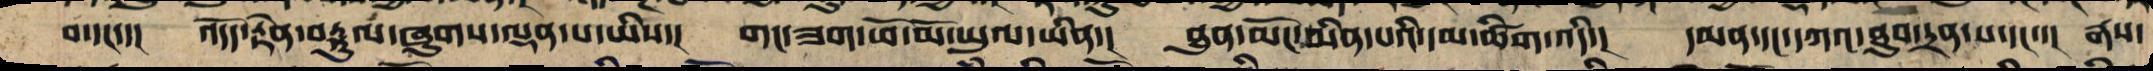བ་དང་་།  འདོད་རྟེན་བརྟུལ་ཞུགས་ལྡན་པ་ཡིས་།  གང་ཟག་ཕོ་མོ་སྤྱོད་ཡུལ་ཡིན་།  ཐུན་མོང་མིན་པའི་དམ་ཚིག་འདི་།  དམན་དང་དཀའ་ཐུབ་དྲན་པ་དང་་།  རྒས་
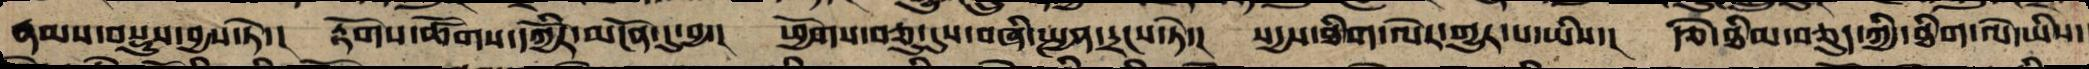རྣམས་བསྡུས་བྱས་ཏེ་།  རྟོགས་ཚོགས་དཀྱིོར་མངོན་དུ་བྱ་།  ཕྱོགས་བཅུ་དུས་བཞི་སྤྱན་དྲངས་ཏེ་།  སདྱས་ཐིག་ལེར་གྱུར་པ་ཡིས་།  རྩེ་ཐིམ་བཅུད་ཀྱི་ཐིག་ལེ་ཡིས་
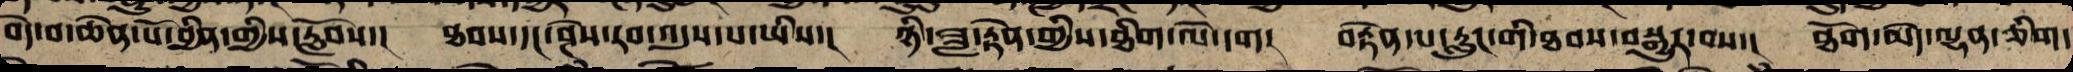བདེ་བ་ཆེན་པོ་བྱིན་གྱིས་རློབས་།  ཐབས་དང་ཤེས་རབ་འདུས་པ་ཡིས་།  ཉི་ཟླ་རྟེན་གྱིས་ཐིག་ལེ་དག།  བརྟེན་པ་རླུང་གི་ཐབས་བསྒྱུར་བས་།  ཐོག་མེད་ལྷན་ཅིག་
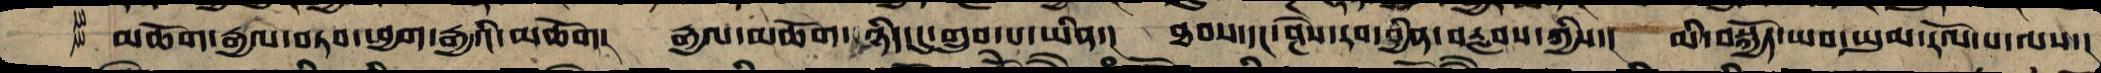མཆོག་རྒྱས་བཏབ་ཕྱག་རྒྱའི་མཆོག། རྒྱལ་མཆོག་ཉིད་དུ་གྲུབ་པ་ཡིན་། ཐབས་དང་ཤེས་རབ་བྱིན་རླབས་ཀྱིས། མི་སྤྱོད་ཡབ་ཡུམ་རོལ་པ་ལས་།
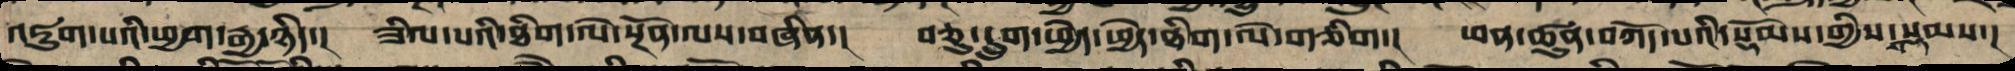འཇུག་པའི་ཕྱག་རྒྱ་ཉིད་།  ཟིལ་པའི་ཐིག་ལེ་སྔོན་ལས་བཞིན་།  བཅུ་དྲུག་ཕྱེད་ཕྱེད་ཐིག་ལེ་གཅིག་།  ཕན་ཚུན་བཀོད་པའི་སྡོམས་གྱིས་སྡམས་།
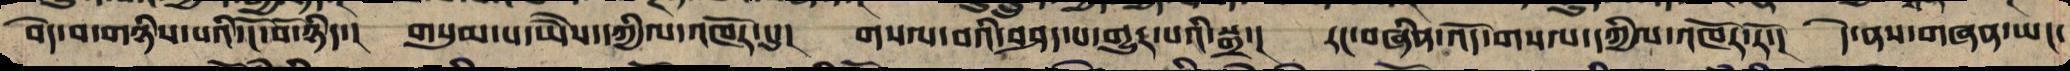བདེ་བ་གཉིས་པའི་ངོ་བོ་ཉིད་།  གསུམ་པ་ཡཻས་དཀྱིལ་འཁོར་དུ་།  གསལ་བའི་བཤད་པ་གྱུར་པའི་སྒྲ་།  རང་བཞིན་འོད་གསལ་དཀྱིལ་འཁོར་རོ་།  དེ་ནས་གཞན་ཡང་
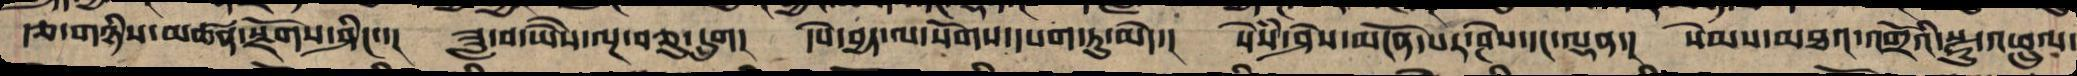རྩ་གཉིས་མཚན་སྫོགས་ཤིང་་།  ཟླ་བ་ཡཻས་ལྔ་བཅུ་དྲུག།  དཔེ་བྱད་ལ་སོགས་དཔག་ཏུ་མེད་།  སེཾས་ཤེས་མངོན་པར་ཤེས་དང་ལྡན་།  སེམས་མཐའ་འགྲོའི་སྫུ་འཕྲུལ་
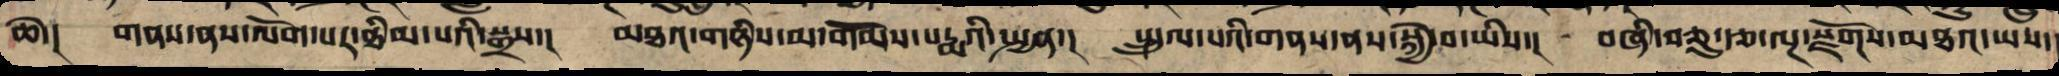ཆེ་།  གནས་ནས་ལོག་པར་ཐིམ་པའི་སྒྲས་།  མཐའ་གཉིས་མ་གོམས་པདྨའི་སྤྱན་།  སྤྲུལ་པའི་གནས་ནས་སྐྱེ་བ་ཡིས་།  བཞི་བཅུ་རྩ་ལྔ་སྫོགས་མཐའ་ཡས་
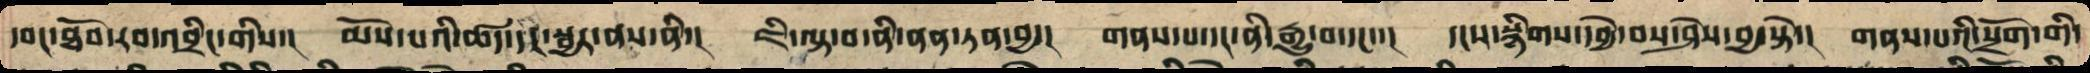དབང་ཐོབ་རབ་འབྲིང་གིས་། མོས་པའི་ཚད་དང་སྦྱར་ནས་ནི་། ཇི་ལྟ་བ་ནི་ནན་ཏན་བྱ་། གནས་པ་དང་ནི་རྒྱུ་བ་དང་་། དངས་སྙིགས་དབྱེ་བས་ཤེས་བྱ་སྟེ་། གནས་པའི་སྲོག་གི་
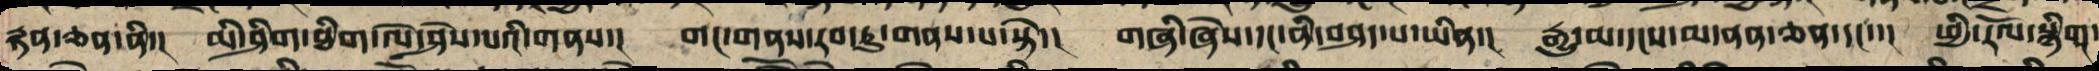རྟན་ཅན་ནི་། མི་ཤིགས་ཐིག་ལེ་ཤེས་པའི་གནས་། གང་གནས་རབ་ཏུ་གནས་པ་སྟེ་། གཞི་ཞེས་དང་ནི་བཤད་པ་ཡིན་། རྒྱུ་བ་དངས་མ་ནན་ཅན་དང་་། ཕྱི་རོལ་སྙིག་
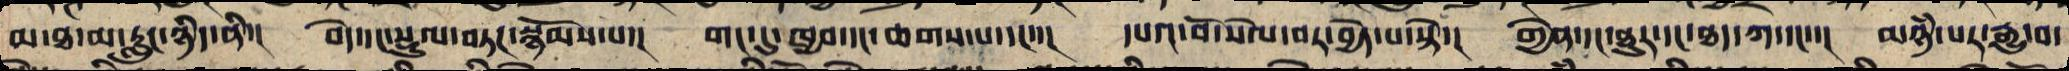མ་ཐ་མ་རླུང་ཉིད་ནི་། བདེ་དང་སྡུལ་བཏང་སྙོམས་པ་། གང་དུ་ཁྱབ་དང་ཆགས་པ་དང་་། དཔའ་བོ་སེལ་བར་བྱེད་པ་སྟེ་། གྱེན་དང་ཐུར་དང་ཐད་ཀ་དང་་། མཉཾ་པར་རྒྱུ་བ་
